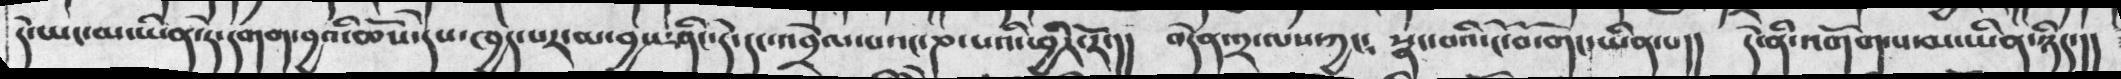དེ་ཡང་མ་ཡིན་དེ་དགག་བྱའི་ཆོས་དེས་ཁྱད་པར་མ་བྱས་ཤིང་དེ་དང་འབྲེལ་པའང་ཎ་པའི་ཕྱིར་རོ་།།  བདེན་༢་ལས་ཀྱང༴  སྣང་བའི་ངོ་བོ་གང་ཡིན་པ།།  དེ་ནི་འགོག་པ་མ་ཡིན་ཉིད་།།
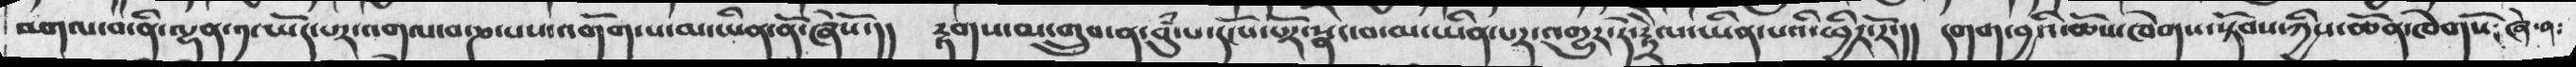འགལ་བ་ནི་ལྡན་༡་ཡོད་པར་འགལ་བ་ཎ་པས་འགོག་པ་མ་ཡིན་ནོ་ཞེསོ་།།  རྟགས་མ་གྲུབ་ན་བུཾ་པ་དངོས་པོར་སྣང་བ་མ་ཡིན་པར་འགྱུར་དེ་རྟྲཻལ་ཡིན་པའི་ཕྱིར་རོ་།།  དགག་བྱའི་ཆོས་ཁེགས་སྟོབས་ཀྱིས་ཆོན་ཁེགསོ༴ ཞེ་ན༴
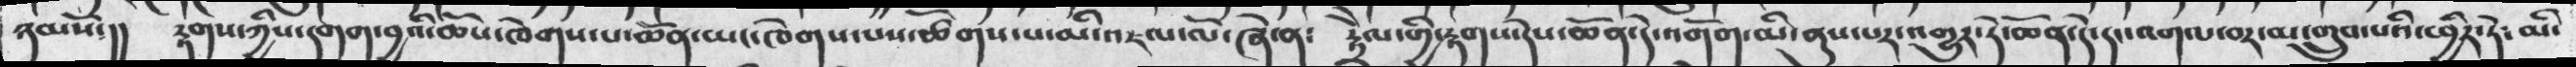ཉམ་སོ་།།  རྟགས་ཀྱི་དགག་བྱའི་ཆོས་ཁེགས་པ་ཆོན་ཡང་ཁེགས་པས་ཚོགས་པ་མི་འཇལ་ལོ་ཞེ་ན༴  རྟྲཻལ་གྱི་རྟགས་དེས་ཆོན་དེ་འགོག་མི་ནུས་པར་འགྱུར་དེ་ཆོན་དེ་དང་འགལ་བར་གྲུབ་པའི་ཕྱིར་དེ༴ མི་
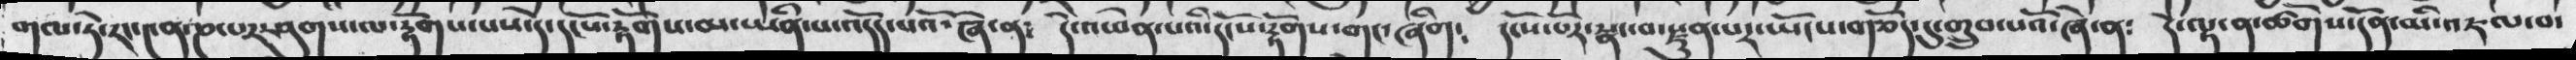གལ་ཏེ་རང་༤ན་ཎ་པར་ཤུགས་ལ་རྟོགས་པས་དེ་དངོས་རྟོགས་མ་ཡིན་པ་འདོད་པའོ་ཞེ་ན༴  དེ་འཕེན་པའི་དངོས་རྟོགས་གང་ཞིག༴  དངོས་པོར་སྣང་བ་རྫུན་པར་ཡོངས་གཅོད་དུ་གྲུབ་པའོ་ཞེ་ན༴  དེ་ལྟ་ན་ཚོགས་དོན་མི་འཇལ་བ་
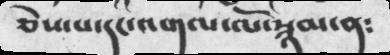ཅེས་པ་དང་འགལ་ལོ་སྙམ་ན༴
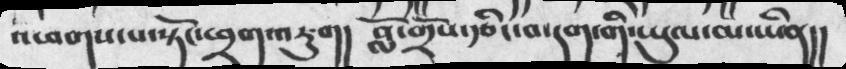འཕགས་པ་སྟོང་ཕྲག་འཇུག།  བློ་གྲོས་རྩིང་བ་དག་གི་ཡུལ་མ་ཡིན།།
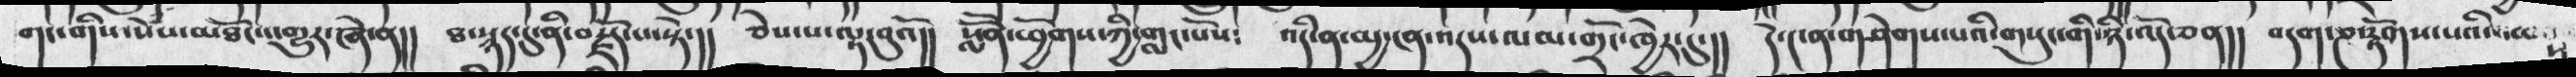གང་གིས་སེཾས་མཐོང་འགྱུར་ཞེ་ན།།   ཐ་སྙད་དུ་ནི་བརྗོད་པ་སྟེ་།།  ཅེས་པ་ལྟ་བུའོ།།  སློོན་ཕྱོགས་ཀྱི་གླང་པོས༴   འདི་ན་མྱ་ངན་འདས་ལམ་གྲོང་ཁྱེར་དུ་།།   དེ་༤ན་གཤེགས་པའི་གསུང་གི་ཉི་འོད་ཅན།།  བདག་ཎ་རྟོགས་པའི་ཁས
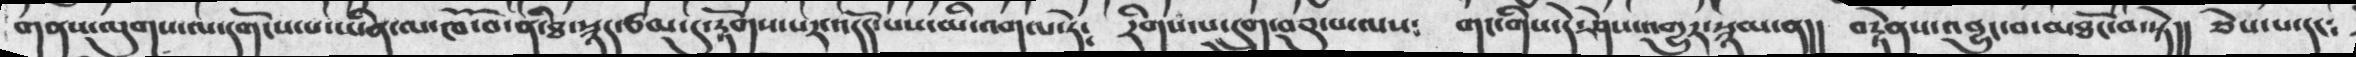གནས་ལུགས་ལ་དགོངས་པ་ཡིན་ལ་ཁོ་བོ་ནི་ཐ་སྙད་ཙམ་དུ་རྟོགས་པར་འདོད་པས་མི་འགལ་དེ༴  རིགས་པ་དྲུག་བཅུ་པ་ལས༴  གང་གིས་དེ་ཤེས་འགྱུར་སྙམ་ན།།   བརྟེནས་འབྱུང་བ་མཐོང་བ་སྟེ།།  ཅེས་པ་དང༴
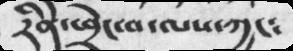རིན་ཕྲེང་བ་ལས་ཀྱང༴
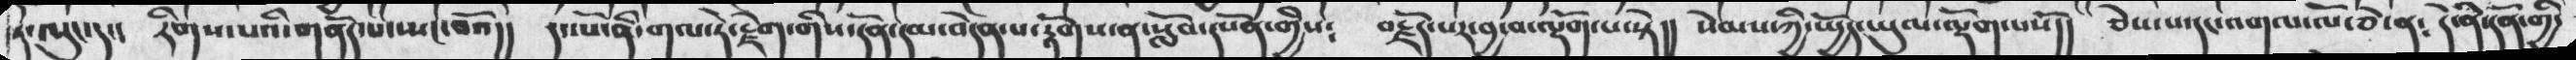ཏེ་ལུང་དང་། རིགས་པའི་གནོད་པ་སྤང་བའོ།།   དང་པོ་ནི་གལ་ཏེ་རྗེག་གིས་དོན་དམ་བདེན་པ་རྟོགས་པ་སློབ་དཔོན་གྱིས༴   བརྗོད་པར་བྱ་བ་ལྡོག་པ་སྟེ།།  སེམས་ཀྱི་སྤྱོད་ཡུལ་ལྡོག་པསོ།།   ཅེས་པ་དང་འགལ་ལོ་ཅེ་ན༴   དེ་ནི་དོན་གྱི་
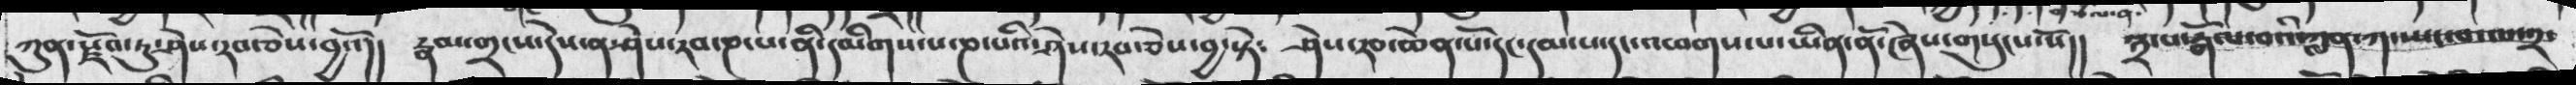ཀུན་རྫོབ་ཏུ་ཤེས་རབ་ཅེས་བྱའོ།།   རྣམ་གྲངས་དེས་ན་ཤེས་རབ་ཎ་པ་ནི་དམིགས་པ་ཎ་པའི་ཤེས་རབ་བྱ་སྟེ༴   ཤེས་རབ་ཆེན་པོ་དང་དམ་པ་དང་འཕགས་པ་ཡིན་ནོ་ཞེས་གསུངས་སོ།།  ༣་པ་རྒོལ་བའི་ཀླན་ཀ་ཡང་བ་ལ་༢་
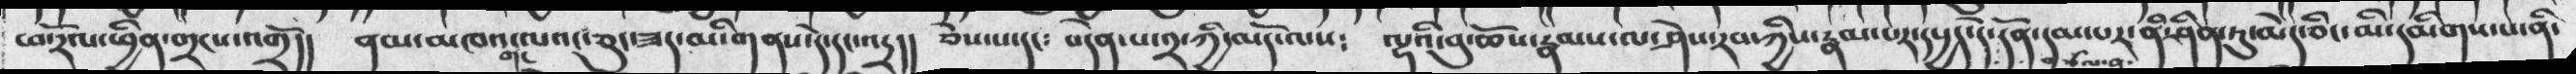ཕ་རོལ་ཕྱིན་གྲངས་འགྲོ།།   ནམ་མཁའ་གང་ལའང་ཅུང་ཟད་མ་གནས་དེ་དང་འདྲ།།  ཅེས་པ་དང༴   བདེན་པ་༢་ཀྱི་མདོ་ལས༴   ལྷའི་བུ་ཆོས་རྣམས་ལ་ཤེས་རབ་ཀྱིས་རྣམ་པར་དཔྱད་དེ་བཙལ་ན་དོན་དམ་པར་ནི་ཤིན་ཏུ་མེད་ཅིང་མི་དམིགས་པ་ནི་
